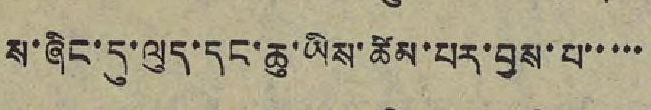ས་ཞིང་དུ་ལུད་དང་ཆུ་ཡིས་ཚེམ་པར་བྱས་པ་་་་་
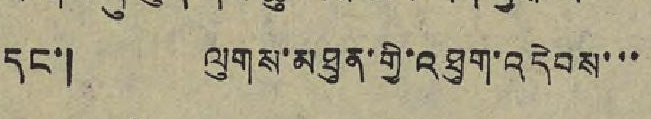དང་། ལུགས་མཐུན་གྱི་འཐུག་འདེབས་་་
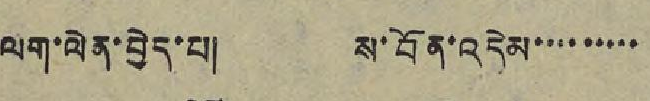ལག་ལེན་བྱེད་པ། ས་བོན་འདེམ་་་་་་་་་
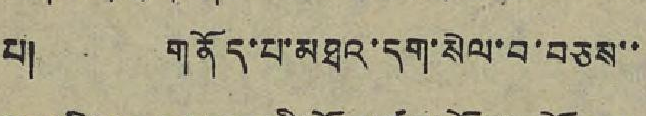པ། གནོད་པ་མཐའ་དག་སེལ་བ་བཅས་་
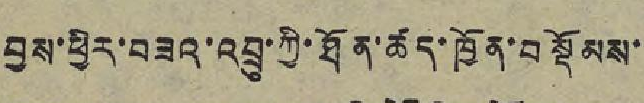བྱས་ཕྱིར་བཟའ་འབྲུ་ཀྱི་ཐོན་ཚད་ཁྱོན་བསྡོམས་
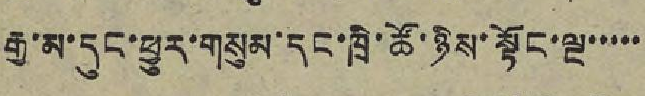རྒྱ་མ་དུང་ཕྱུར་གསུམ་དང་ཁྲི་ཚོ་ཉིས་སྟོང་ལྔ་་་་་
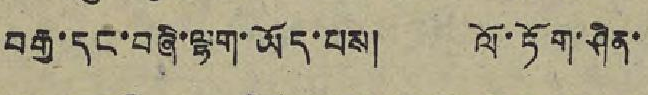བརྒྱ་དང་བཞི་ལྷག་ཡོད་པས། ལོ་ཏོག་ཤིན་
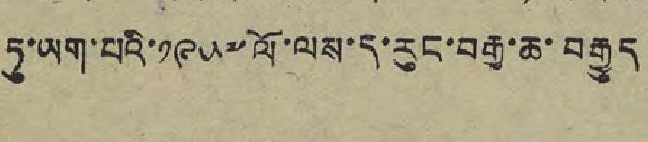ཏུ་ཡག་པའི་ ༡༩༥༧ ལོ་ལས་ད་རུང་བརྒྱ་ཆ་བརྒྱུད
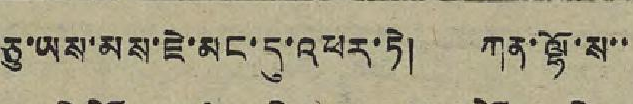ཅུ་ཡས་མས་ཇེ་མང་དུ་འཕར་ཏེ། ཀན་ལྷོ་ས་་
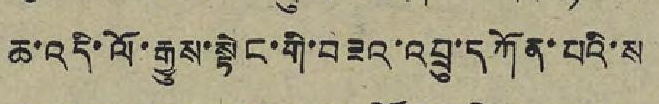ཆ་འདི་ལོ་རྒྱུས་སྟེང་གི་བཟའ་འབྲུ་དཀོན་པའི་ས
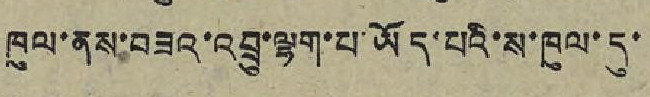ཁུལ་ནས་བཟའ་འབྲུ་ལྷག་པ་ཡོད་པའི་ས་ཁུལ་དུ་
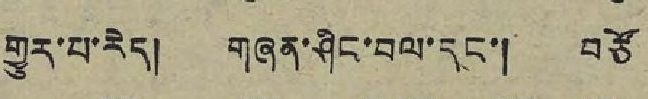གྱུར་པ་རེད། གཞན་ཤིང་བལ་དང་། བཙོ
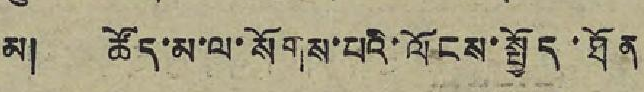མ། ཚོད་མ་ལ་སོགས་པའི་ལོངས་སྤྱོད་ཐོན
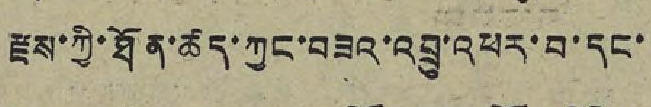རྫས་ཀྱི་ཐོན་ཚད་ཀྱང་བཟའ་འབྲུ་འཕར་བ་དང་
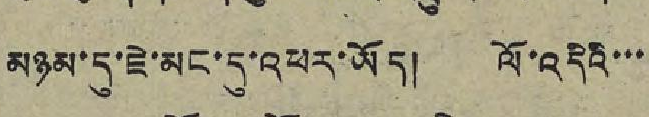མཉམ་དུ་ཇེ་མང་དུ་འཕར་ཡོད། ལོ་འདིའི་་་
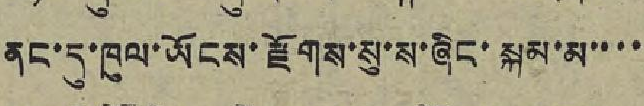ནང་དུ་ཁུལ་ཡོངས་རྫོགས་སུ་ས་ཞིང་སྐམ་མ་་་་
